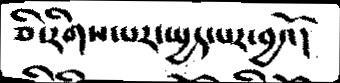ཅི་རིགས་པར་སྤྱད་པར་བྱའོ།
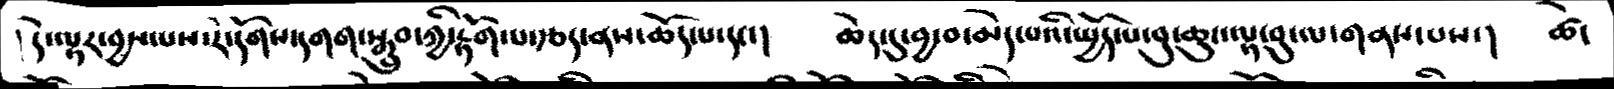།དེ་ལྟར་བྱས་པས་རེ་དོགས་དགག་སྒྲུབ་ཀྱི་རྟོག་པ་རྩད་ནས་ཆོད་པ་དང་།   ཆེད་དུ་བྱ་བ་མེད་པའི་སྤྱོད་པ་བུ་ཆུང་ལྟ་བུ་ལ་གནས་པས་།    ཚེ་
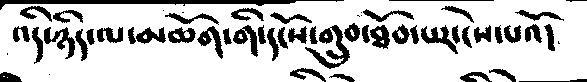འདི་ཉིད་ལ་མཆོག་གི་དངོས་གྲུབ་ཐོབ་པར་ངེས་པའོ།
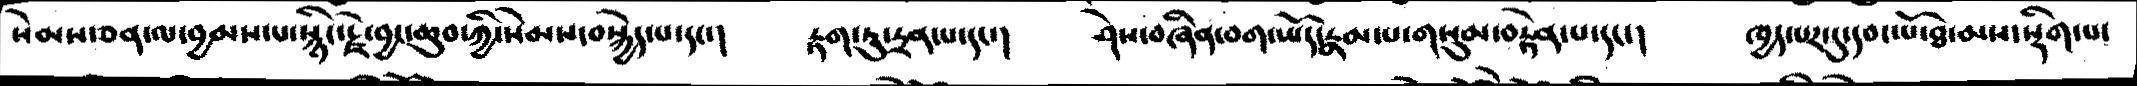སེམས་ཅན་ལ་བྱམས་པ་སྙིང་རྗེ་བྱང་ཆུབ་སེམས་བསྐྱེད་པ་དང་།   རྟག་ཏུ་དྲན་པ་དང་།   ཤེས་བཞིན་བག་ཡོད་རྣམ་པ་གསུམ་བརྟེན་པ་དང་།   ཁྱད་པར་དུ་དབང་པོ་ཐ་མས་སྡིག་པ་
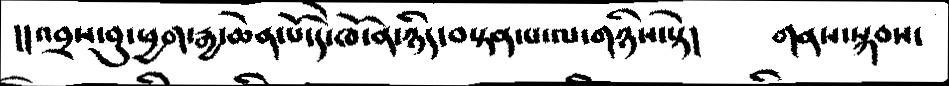།།འབྲས་བུ་ཕྱག་རྒྱ་ཆེན་པོ་དེ་ཁོ་ན་ཉིད་བསྟན་པ་ལ་གཉིས་སྟེ།   གནས་སྐབས་
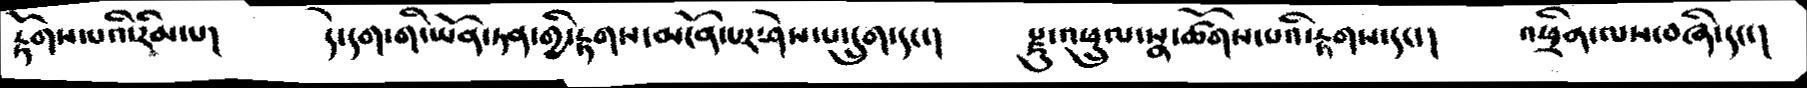རྟོགས་པའི་རིམ་པ།   དེ་དག་གི་ཡོན་ཏན་གྱི་རྟགས་མངོན་པར་ཤེས་པ་དྲུག་དང་།   རྫུ་འཕྲུལ་སྣ་ཚོགས་པའི་རྟགས་དང་།   འཕྲིན་ལས་བཞི་དང་།
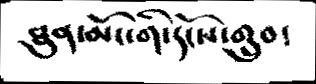ཐུན་མོང་གི་དངོས་གྲུབ་
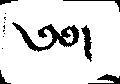༄༅།
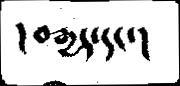།བརྒྱད་དང་།
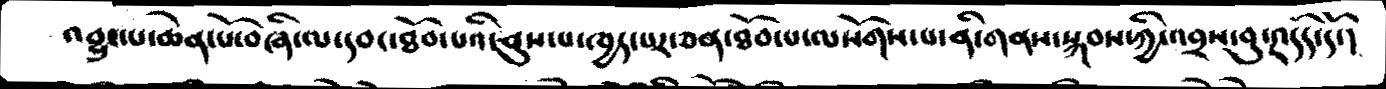འབྱུང་པ་ཆེན་པོ་བཞི་ལ་དབང་ཐོབ་པའི་ནུས་པ་ཁྱད་པར་ཅན་ཐོབ་པ་ལསོགས་པ་ནི་གནས་སྐབས་ཀྱི་འབྲས་བུར་འདོད་དོ་།
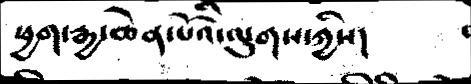ཕྱག་རྒྱ་ཆེན་པོའི་ལུགས་ཀྱིས།
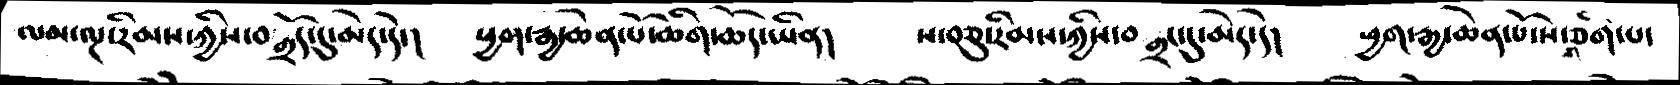ལམ་ལྔ་རིམས་ཀྱིས་བགྲོད་མེད་དེ་།   ཕྱག་རྒྱ་ཆེན་པོ་ཆིག་ཆོད་ཡིན།   ས་བཅུ་རིམས་ཀྱིས་བགྲང་དུ་མེད་དེ།    ཕྱག་རྒྱ་ཆེན་པོ་གཅིག་པ་
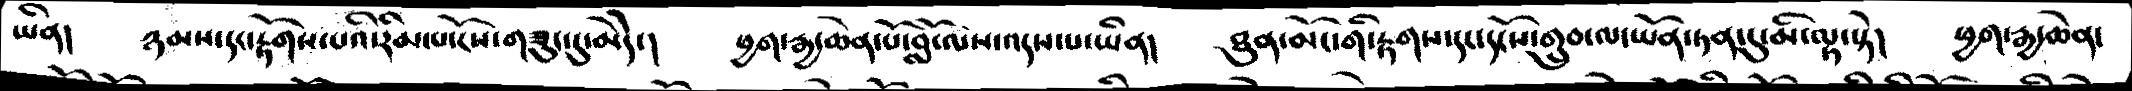ཡིན།   ཉམས་དང་རྟོགས་པའི་རིམ་པ་ངོས་གཟུང་དུ་མེདེ་།   ཕྱག་རྒྱ་ཆེན་པོ་བློ་ལས་འདས་པ་ཡིན།   ཐུན་མོང་གི་རྟགས་དང་དངོས་གྲུབ་ལ་ཡོན་ཏན་དུ་མི་ལྟ་སྟེ།   ཕྱག་རྒྱ་ཆེན་
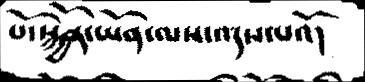པོ་སྐྱོན་ཡོན་ལས་འདས་པའོ།
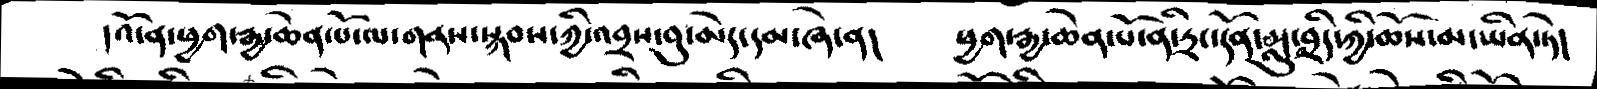།འོ་ན་ཕྱག་རྒྱ་ཆེན་པོ་ལ་གནས་སྐབས་ཀྱི་འབྲས་བུ་མེད་དམ་ཞེ་ན།   ཕྱག་རྒྱ་ཆེན་པོ་ནི་དྲང་དོན་སླུ་བྲིད་ཀྱི་ཆོས་མ་ཡིན་ཏེ།
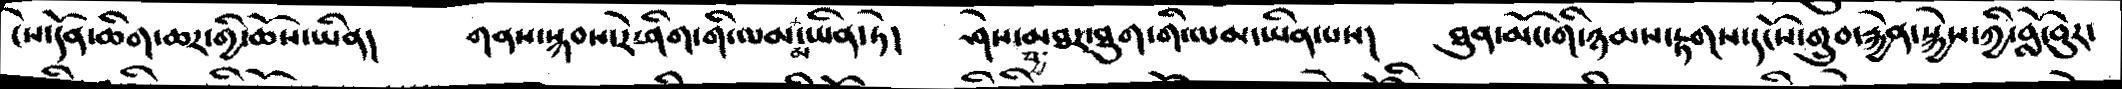ངེས་དོན་ཆིག་ཆར་གྱི་ཆོས་ཡིན།   གནས་སྐབས་རེ་ཤིག་གི་ལམ་མ་ཡིན་ཏེ།   ཤེས་བྱ་མཐར་ཐུག་གི་ལམ་ཡིན་པས།   ཐུན་མོང་གི་ཉམས་རྟགས་དངོས་གྲུབ་རྐྱེན་སྐྱེས་ཀྱི་བློ་བུར་
